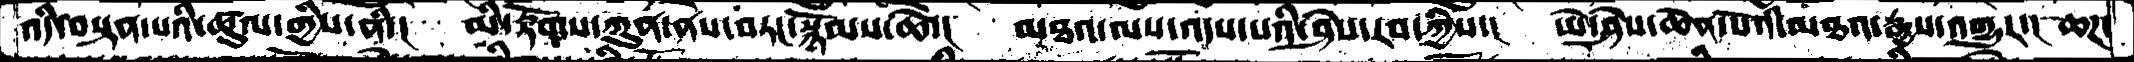འདི་བསྟན་པའི་ཚུལ་གྱིས་ནི་།  མི་རྟོགས་ཀུན་ནས་བཏང་སྙོམས་ཆེ་།  མཐའ་ལས་འདས་པའི་ཤེས་རབ་ཀྱིས་།  ཡེ་ཤེས་ཆེན་པོའི་མཐའ་རྒྱས་འགྱུར་།  ཆཌ་
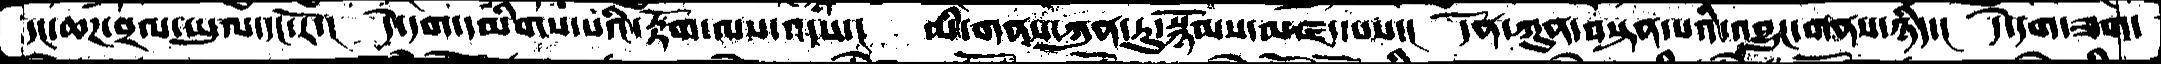དང་ཆཌ་བྲལ་ཡུལ་དང་རོ་།  དེ་དག་དམིགས་པའི་རྟོག་ལས་འདས་།  མི་གནས་ཀུན་ཏུ་སྙོམས་མཛད་པས་།  དོན་ཀུན་བསྟན་པའི་འབྱུང་གནས་ཉིད་།  དེ་དག་ཟག་
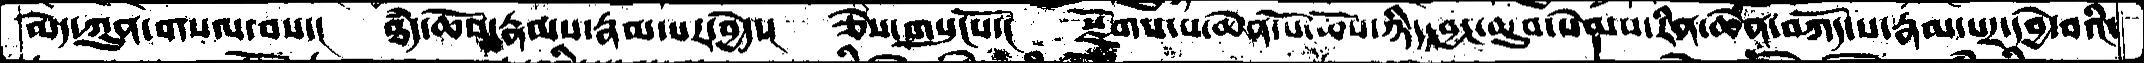མེད་ཀུན་གསལ་བས་།  ཐཾད་ཆོས་རྣམས་རྣམ་པར་བྱེད་།  ཅེས་གསུངསོ་།  སྫོགས་པ་ཆེན་པོ་ཆོས་ཉིད་བྱང་ཆུབ་སེམས་རིན་ཆེན་བཀོད་པ་རྣམ་པར་དབྱེ་བའི་
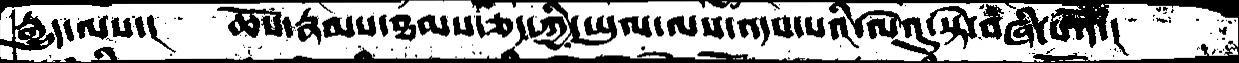རྒྱུད་ལས་།   ཆོས་རྣམས་ཐམས་ཅད་ཀྱི་ཡུལ་ལས་འདས་པའི་ལེའུ་སྟེ་བཞི་པའོ་།
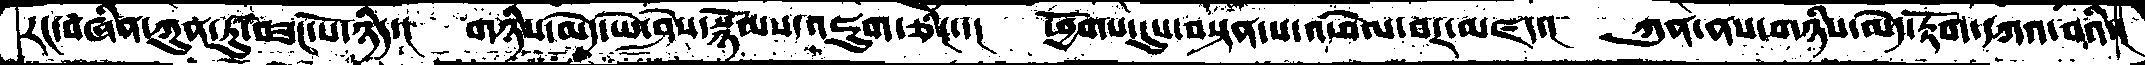རང་བཞིན་ཀུན་ཏུ་བཟང་པོ་ཉིད་།  གཉིས་མེད་ཡེ་ཤེས་སྙོམས་འཇུག་ཅིང་་།  ཕྱོགས་དུས་བསྟན་པ་འཕེལ་བར་མཛད་།  ཀུན་ནས་གཉིས་མེད་རྟོག་དཀའ་བའི་།
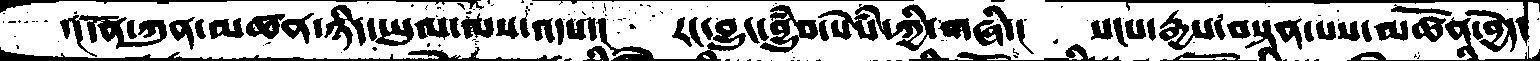་།དོན་ཀུན་མཚན་ཉིད་ཡུལ་ལས་འདས་།   རང་བྱུང་བྱུཾབ་སེཾས་ཀྱི་གཞི་།  སངས་རྒྱས་བསྟན་པས་མཚོན་བྱེད་
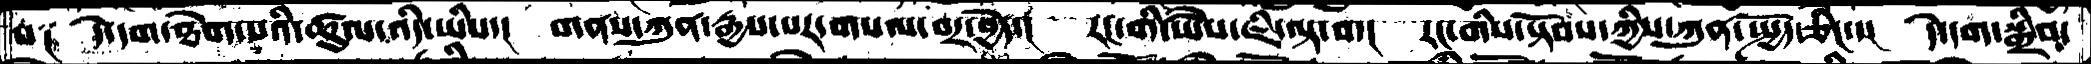བ༑  དེ་དག་ཐེག་པའི་ཚུལ་འདི་ཡིས་།  གནས་ཀུན་རྒྱས་པར་གསལ་བར་བྱེད་།  རང་གི་ཡཻས་ཇི་ལྟ་བ་།  རང་གིས་སྟོབས་ཀྱིས་ཀུན་སྤྱོད་ཅིང་་།  དེ་དག་སྒྲིབ་
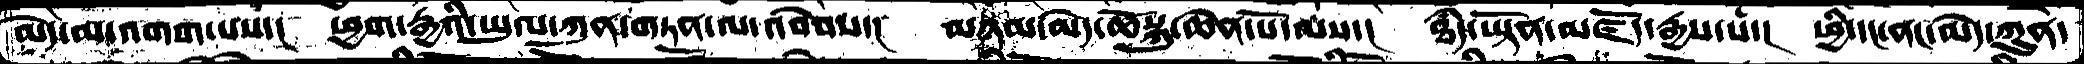མེད་མ་འགག་པས་།  ཕྱག་རྒྱའི་ཡུལ་ཀུན་གཏན་ལ་འབེབས་།  མཉམ་མེད་ཆོསྐུ་ཆེན་པོ་ལས་།  ཐཾད་ཡྟོན་མཛོད་རྒྱས་པ་།  ཕྱི་དང་ནང་མེད་ཀུན་
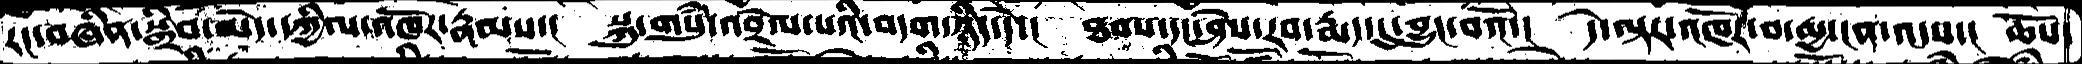རང་བཞིན་སྒྲིབ་མེད་དཀྱིལ་འཁོར་རྣམས་།  སྐུ་གསུཾ་འབྲེལ་པའི་བདག་ཉིད་དེ་།  ཐབས་དང་ཤེས་རབ་རྨད་དུ་བྱུང་བའོ་།  དེ་ལྟར་འཁོར་བ་མྱ་ངན་འདས་།  ཆོས་
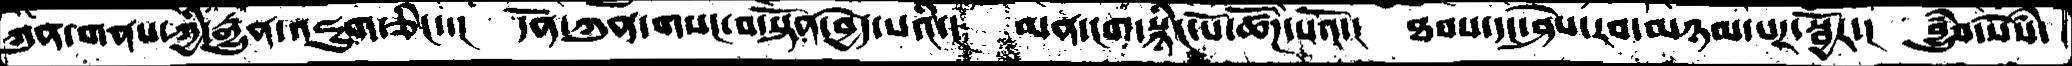ཀུན་གནས་ཀྱི་རྒྱུན་འཇུག་ཅིང་་།  དོན་ཀུན་གསང་བ་སྟོན་བྱེད་པའི་།  མན་ངག་སྙིང་པོ་ཚོཌ་པའོ་།  ཐབས་དང་ཤེས་རབ་མཉམ་པར་སྦྱོར་།  བྱུཾབ་སེཾས་
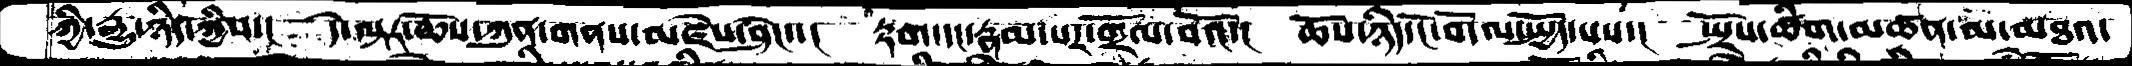ཀྱི་རྒྱུ་ཉིད་ཀྱིས་།    དེ་ལྟར་ཆོས་ཀུན་གནས་མཛེས་ཤིང་་།  རྟག་དང་རྣམ་པར་གྲོལ་བའོ་།  ཆོས་ཉིད་ངོ་བོ་གོལ་སྤྱོད་པས་།  སྤྲོས་ཚིག་མཚན་མ་མཐའ་
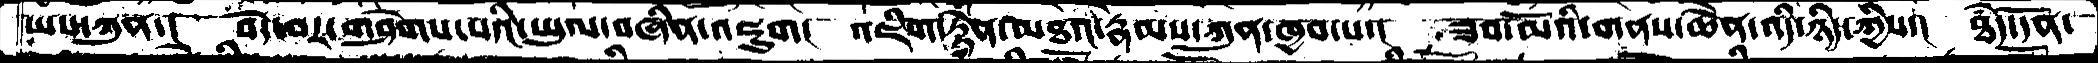ཡས་ཀུན་།  བདེ་བར་གཤེགས་པའི་ཡུལ་བཞིན་འཇུག།  འཇིག་རྟེན་མཐའ་རྣམས་ཀུན་ཁྱབ་པ་།  ཟབ་མོའི་གནས་ཆེན་འདི་ཉིད་ཀྱིས་།  ཐཾད་དོན་
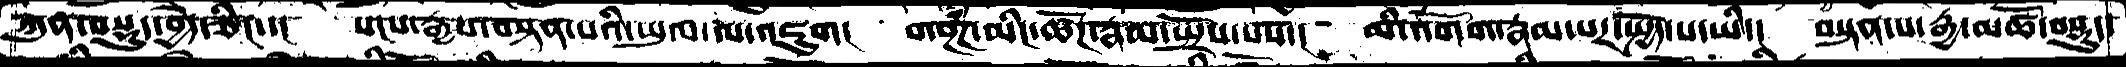ཀུན་བསྡུད་བྱེད་ཅིང་་། སངས་རྒྱས་བསྟན་པའི་ཡུལ་ལ་འཇུག། གསྔཾཌ་མིང་ཚོཌ་རྣམ་སྤྲོས་པས་། མི་འགོག་རྣམ་པར་སྤྱོད་པ་ཡི་། བསྟན་པ་རྒྱ་མཚོ་བསྡུད་
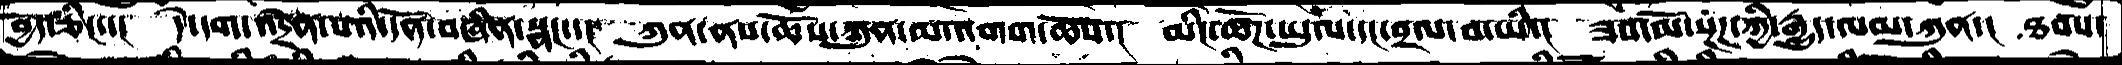བྱད་ཅིང་་།  དེ་དག་འདྲེན་པའི་དོན་བཞིན་སྣང་་།  ཀུན་ནས་ཆོས་ཀུན་མ་འགག་ཆོས་།  མིང་ཚོཌ་ཡུལ་དང་བྲལ་བ་ཡི་།  ཟབ་མོ་སྔཌ་ཀྱི་རྒྱུད་ལམ་ཀུན་།  ཐབས་
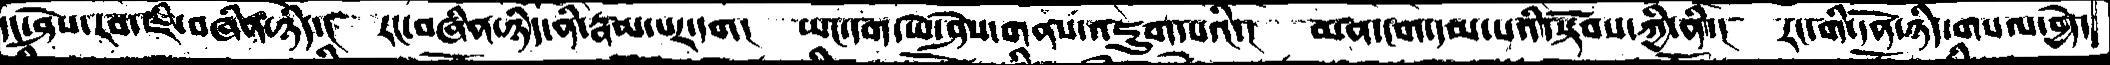དང་ཤེས་རབ་ཇི་བཞིན་ཉིད་།  རང་བཞིན་ཉིད་ནི་རྣམ་པར་དག།  ཡང་དག་ཡེ་ཤེས་གནས་འཇུག་པའི་།  མན་ངག་དམ་པའི་སྟོབས་ཀྱི་ནི་།  རང་གི་དོན་ཉིད་གསལ་བྱེད་
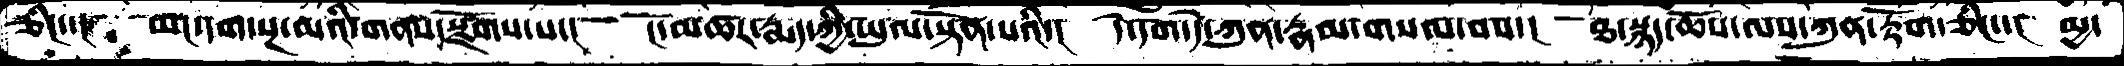ཅིང་་།  ཡང་དག་སྔ་མའི་གནས་སྫོགས་པ་།  ངོ་མཚར་རྨད་ཀྱི་ཡུལ་སྟོན་པའི་།  དེ་དག་དེ་ཀུན་རྣམ་གསལ་བས་།  ཐ་སྙད་ཆོས་ལས་ཀུན་རྟོག་ཅིང་་།  མྱ་
